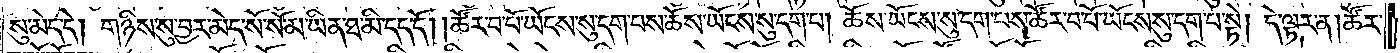སུ་མེད་དེ། གཉིས་སུ་བྱར་མེད་སོ་སོ་མ་ཡིན་ཐ་མི་དད་དོ། །ཚོར་བ་པོ་ཡོངས་སུ་དག་པས་ཆོས་ཡོངས་སུ་དག་པ། ཆོས་ཡོངས་སུ་དག་པས་ཚོར་བ་པོ་ཡོངས་སུ་དག་པ་སྟེ། དེ་ལྟར་ན། ཚོར་
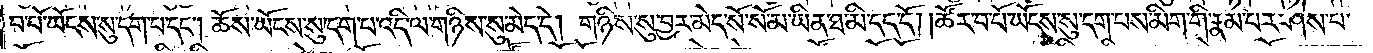བ་པོ་ཡོངས་སུ་དག་པ་དང༌། ཆོས་ཡོངས་སུ་དག་པ་འདི་ལ་གཉིས་སུ་མེད་དེ། གཉིས་སུ་བྱར་མེད་སོ་སོ་མ་ཡིན་ཐ་མི་དད་དོ། །ཚོར་བ་པོ་ཡོངས་སུ་དག་པས་མིག་གི་རྣམ་པར་ཤེས་པ་
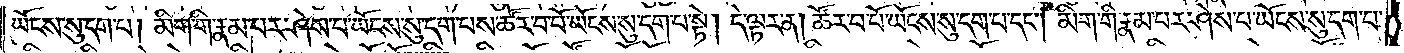ཡོངས་སུ་དག་པ། མིག་གི་རྣམ་པར་ཤེས་པ་ཡོངས་སུ་དག་པས་ཚོར་བ་པོ་ཡོངས་སུ་དག་པ་སྟེ། དེ་ལྟར་ན། ཚོར་བ་པོ་ཡོངས་སུ་དག་པ་དང༌། མིག་གི་རྣམ་པར་ཤེས་པ་ཡོངས་སུ་དག་པ་
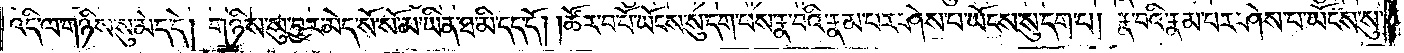འདི་ལ་གཉིས་སུ་མེད་དེ། གཉིས་སུ་བྱར་མེད་སོ་སོ་མ་ཡིན་ཐ་མི་དད་དོ། །ཚོར་བ་པོ་ཡོངས་སུ་དག་པས་རྣ་བའི་རྣམ་པར་ཤེས་པ་ཡོངས་སུ་དག་པ། རྣ་བའི་རྣམ་པར་ཤེས་པ་ཡོངས་སུ་
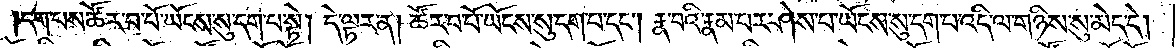དག་པས་ཚོར་བ་པོ་ཡོངས་སུ་དག་པ་སྟེ། དེ་ལྟར་ན། ཚོར་བ་པོ་ཡོངས་སུ་དག་པ་དང༌། རྣ་བའི་རྣམ་པར་ཤེས་པ་ཡོངས་སུ་དག་པ་འདི་ལ་གཉིས་སུ་མེད་དེ།
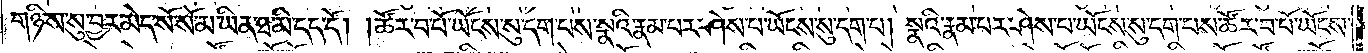གཉིས་སུ་བྱར་མེད་སོ་སོ་མ་ཡིན་ཐ་མི་དད་དོ། །ཚོར་བ་པོ་ཡོངས་སུ་དག་པས་སྣའི་རྣམ་པར་ཤེས་པ་ཡོངས་སུ་དག་པ། སྣའི་རྣམ་པར་ཤེས་པ་ཡོངས་སུ་དག་པས་ཚོར་བ་པོ་ཡོངས་
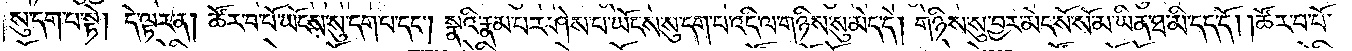སུ་དག་པ་སྟེ། དེ་ལྟར་ན། ཚོར་བ་པོ་ཡོངས་སུ་དག་པ་དང༌། སྣའི་རྣམ་པར་ཤེས་པ་ཡོངས་སུ་དག་པ་འདི་ལ་གཉིས་སུ་མེད་དེ། གཉིས་སུ་བྱར་མེད་སོ་སོ་མ་ཡིན་ཐ་མི་དད་དོ། །ཚོར་བ་པོ་
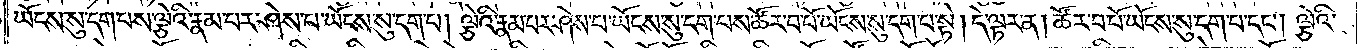ཡོངས་སུ་དག་པས་ལྕེའི་རྣམ་པར་ཤེས་པ་ཡོངས་སུ་དག་པ། ལྕེའི་རྣམ་པར་ཤེས་པ་ཡོངས་སུ་དག་པས་ཚོར་བ་པོ་ཡོངས་སུ་དག་པ་སྟེ། དེ་ལྟར་ན། ཚོར་བ་པོ་ཡོངས་སུ་དག་པ་དང༌། ལྕེའི་
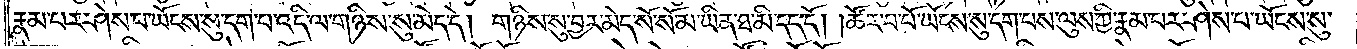རྣམ་པར་ཤེས་པ་ཡོངས་སུ་དག་པ་འདི་ལ་གཉིས་སུ་མེད་དེ། གཉིས་སུ་བྱར་མེད་སོ་སོ་མ་ཡིན་ཐ་མི་དད་དོ། །ཚོར་བ་པོ་ཡོངས་སུ་དག་པས་ལུས་ཀྱི་རྣམ་པར་ཤེས་པ་ཡོངས་སུ་
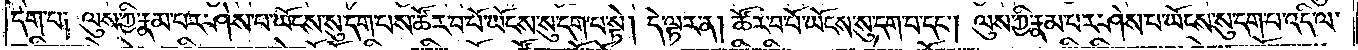དག་པ༑ ལུས་ཀྱི་རྣམ་པར་ཤེས་པ་ཡོངས་སུ་དག་པས་ཚོར་བ་པོ་ཡོངས་སུ་དག་པ་སྟེ། དེ་ལྟར་ན། ཚོར་བ་པོ་ཡོངས་སུ་དག་པ་དང༌། ལུས་ཀྱི་རྣམ་པར་ཤེས་པ་ཡོངས་སུ་དག་པ་འདི་ལ་
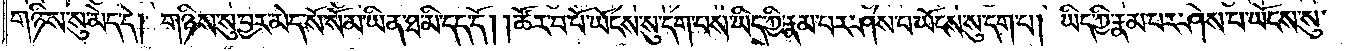གཉིས་སུ་མེད་དེ། གཉིས་སུ་བྱར་མེད་སོ་སོ་མ་ཡིན་ཐ་མི་དད་དོ། ། ཚོར་བ་པོ་ཡོངས་སུ་དག་པས་ཡིད་ཀྱི་རྣམ་པར་ཤེས་པ་ཡོངས་སུ་དག་པ། ཡིད་ཀྱི་རྣམ་པར་ཤེས་པ་ཡོངས་སུ་
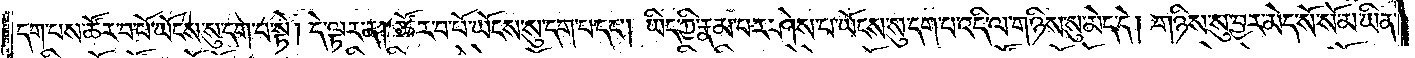དག་པས་ཚོར་བ་པོ་ཡོངས་སུ་དག་པ་སྟེ། དེ་ལྟར་ན། ཚོར་བ་པོ་ཡོངས་སུ་དག་པ་དང༌། ཡིད་ཀྱི་རྣམ་པར་ཤེས་པ་ཡོངས་སུ་དག་པ་འདི་ལ་གཉིས་སུ་མེད་དེ། གཉིས་སུ་བྱར་མེད་སོ་སོ་མ་ཡིན་
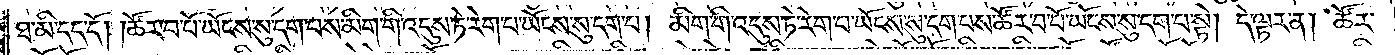ཐ་མི་དད་དོ། །ཚོར་བ་པོ་ཡོངས་སུ་དག་པས་མིག་གི་འདུས་ཏེ་རེག་པ་ཡོངས་སུ་དག་པ། མིག་གི་འདུས་ཏེ་རེག་པ་ཡོངས་སུ་དག་པས་ཚོར་བ་པོ་ཡོངས་སུ་དག་པ་སྟེ། དེ་ལྟར་ན། ཚོར་
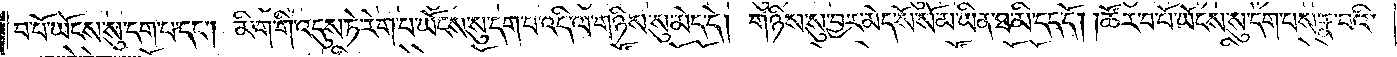བ་པོ་ཡོངས་སུ་དག་པ་དང༌། མིག་གི་འདུས་ཏེ་རེག་པ་ཡོངས་སུ་དག་པ་འདི་ལ་གཉིས་སུ་མེད་དེ། གཉིས་སུ་བྱར་མེད་སོ་སོ་མ་ཡིན་ཐ་མི་དད་དོ། །ཚོར་བ་པོ་ཡོངས་སུ་དག་པས་རྣ་བའི་
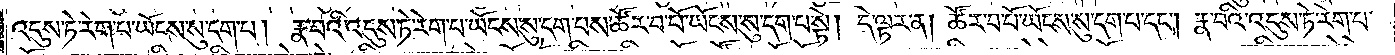འདུས་ཏེ་རེག་པ་ཡོངས་སུ་དག་པ། རྣ་བའི་འདུས་ཏེ་རེག་པ་ཡོངས་སུ་དག་པས་ཚོར་བ་པོ་ཡོངས་སུ་དག་པ་སྟེ། དེ་ལྟར་ན། ཚོར་བ་པོ་ཡོངས་སུ་དག་པ་དང༌། རྣ་བའི་འདུས་ཏེ་རེག་པ་
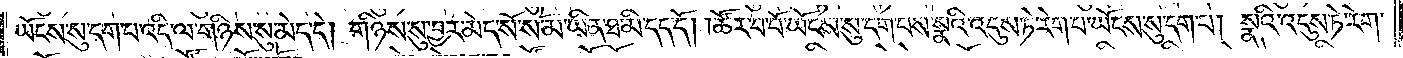ཡོངས་སུ་དག་པ་འདི་ལ་གཉིས་སུ་མེད་དེ། གཉིས་སུ་བྱར་མེད་སོ་སོ་མ་ཡིན་ཐ་མི་དད་དོ། །ཚོར་བ་པོ་ཡོངས་སུ་དག་པས་སྣའི་འདུས་ཏེ་རེག་པ་ཡོངས་སུ་དག་པ། སྣའི་འདུས་ཏེ་རེག་
